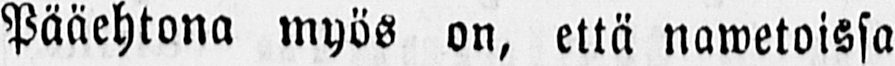Pääehtona myös on, että nawetoissa
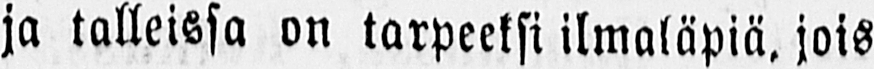ja talleissa on tarpeeksi ilmaläpiä, jois-
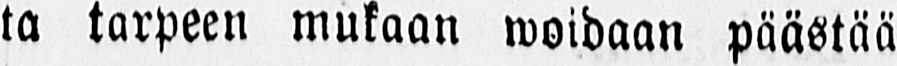ta tarpeen mukaan woidaan päästää
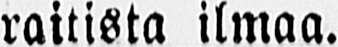raitista ilmaa.
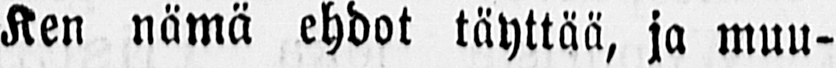Ken nämä ehdot täyttää, ja muu-
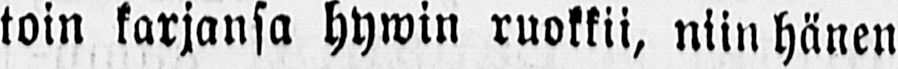toin karjansa hywin ruokkii, niin hänen
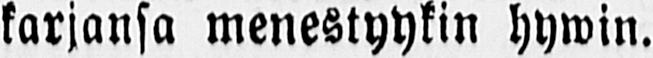karjansa menestyykin hywin.
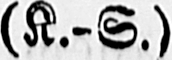(K.-S.)
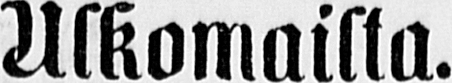Ulkomailta.
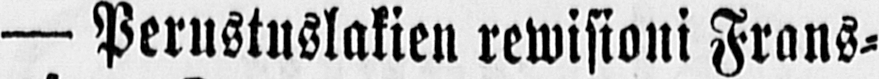— Perustuslakien rewisioni Frans-
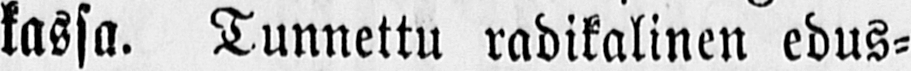kassa. Tunnettu radikaalinen edus-
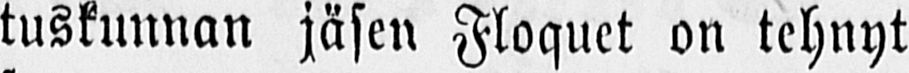tuskunnan jäsen Floquet on tehnyt
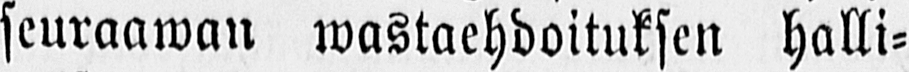seuraawan wastaehdoituksen halli-
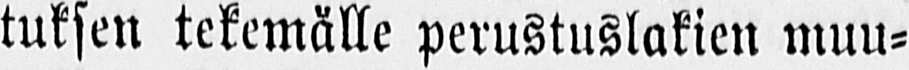tuksen tekemälle perustuslakien muu-
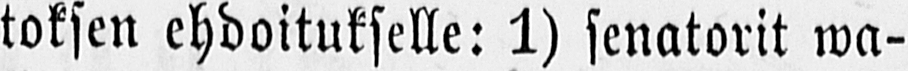toksen ehdoitukselle: 1) senatorit wa-
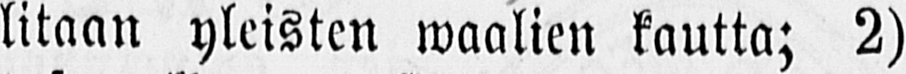litaan yleisten waalien kautta; 2)
